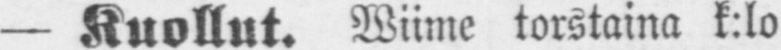— Kuollut. Wiime torstaina k:lo
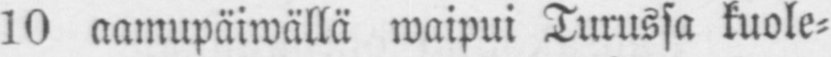10 aamupäiwällä waipui Turussa kuole-
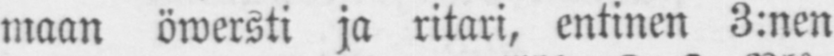maan öwersti ja ritari, entinen 3:nen
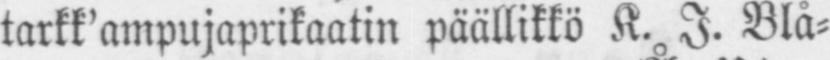tarkk'ampujaprikaatin päällikkö K. I. Blå-
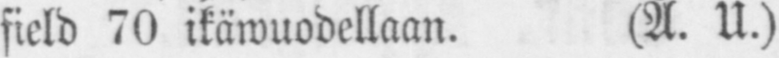field 70 ikäwuodellaan. (Å.U.)
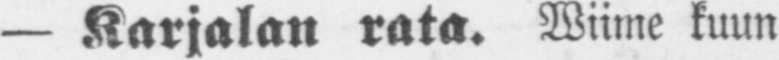— Karjalan rata. Wiime kuun
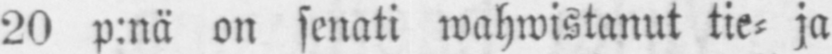20 p:nä on senati wahwistanut tie- ja
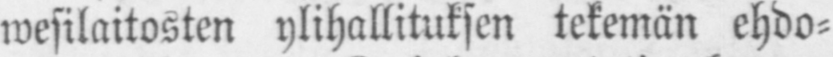wesilaitosten ylihallituksen tekemän ehdo-
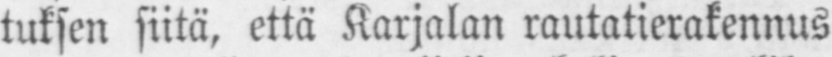tuksen siitä, että Karjalan rautatierakennus
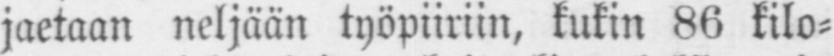jaetaan neljään työpiiriin, kukin 86 kilo-
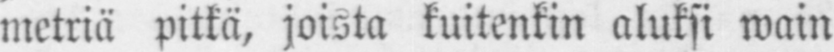metriä pitkä, joista kuitenkin aluksi wain
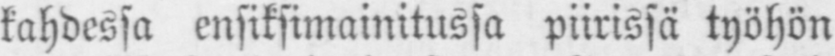kahdessa ensiksimainitussa piirissä työhön
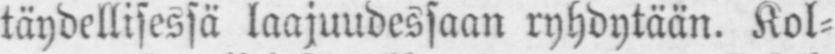täydellisessä laajuudessaan ryhdytään. Kol-
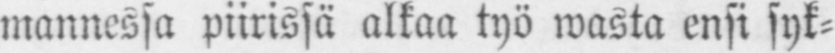mannessa piirissä alkaa työ wasta ensi syk-
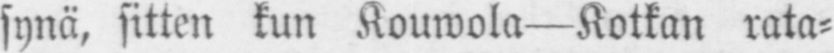synä, sitten kun Kouwola —Kotkan rata-
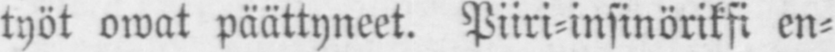työt owat päättyneet. Piiri-insinöriksi en-
